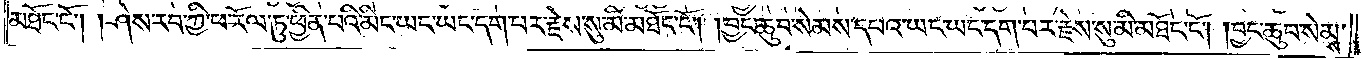མཐོང་ངོ༌། །ཤེས་རབ་ཀྱི་ཕ་རོལ་ཏུ་ཕྱིན་པའི་མིང་ཡང་ཡང་དག་པར་རྗེས་སུ་མི་མཐོང་ངོ༌། །བྱང་ཆུབ་སེམས་དཔའ་ཡང་ཡང་དག་པར་རྗེས་སུ་མི་མཐོང་ངོ༌། །བྱང་ཆུབ་སེམས་
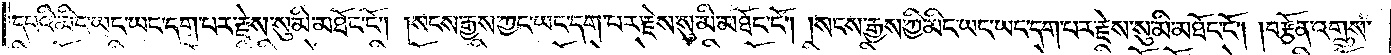དཔའི་མིང་ཡང་ཡང་དག་པར་རྗེས་སུ་མི་མཐོང་ངོ༌། །སངས་རྒྱས་ཀྱང་ཡང་དག་པར་རྗེས་སུ་མི་མཐོང་ངོ༌། །སངས་རྒྱས་ཀྱི་མིང་ཡང་ཡང་དག་པར་རྗེས་སུ་མི་མཐོང་ངོ༌། །བརྩོན་འགྲུས་
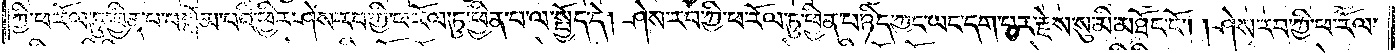ཀྱི་ཕ་རོལ་ཏུ་ཕྱིན་པ་བསྒོམ་པའི་ཕྱིར་ཤེས་རབ་ཀྱི་ཕ་རོལ་ཏུ་ཕྱིན་པ་ལ་སྤྱོད་དེ། ཤེས་རབ་ཀྱི་ཕ་རོལ་ཏུ་ཕྱིན་པ་ཉིད་ཀྱང་ཡང་དག་པར་རྗེས་སུ་མི་མཐོང་ངོ༌། །ཤེས་རབ་ཀྱི་ཕ་རོལ་
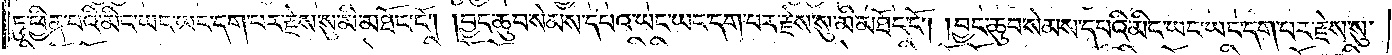ཏུ་ཕྱིན་པའི་མིང་ཡང་ཡང་དག་པར་རྗེས་སུ་མི་མཐོང་ངོ༌། །བྱང་ཆུབ་སེམས་དཔའ་ཡང་ཡང་དག་པར་རྗེས་སུ་མི་མཐོང་ངོ༌། །བྱང་ཆུབ་སེམས་དཔའི་མིང་ཡང་ཡང་དག་པར་རྗེས་སུ་
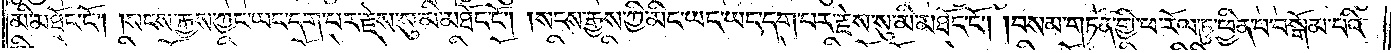མི་མཐོང་ངོ༌། །སངས་རྒྱས་ཀྱང་ཡང་དག་པར་རྗེས་སུ་མི་མཐོང་ངོ༌། །སངས་རྒྱས་ཀྱི་མིང་ཡང་ཡང་དག་པར་རྗེས་སུ་མི་མཐོང་ངོ༌། །བསམ་གཏན་གྱི་ཕ་རོལ་ཏུ་ཕྱིན་པ་བསྒོམ་པའི་
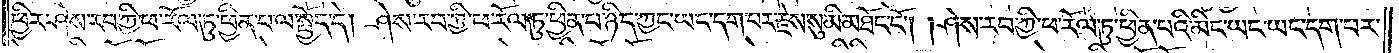ཕྱིར་ཤེས་རབ་ཀྱི་ཕ་རོལ་ཏུ་ཕྱིན་པ་ལ་སྤྱོད་དེ། ཤེས་རབ་ཀྱི་ཕ་རོལ་ཏུ་ཕྱིན་པ་ཉིད་ཀྱང་ཡང་དག་པར་རྗེས་སུ་མི་མཐོང་ངོ༌། །ཤེས་རབ་ཀྱི་ཕ་རོལ་ཏུ་ཕྱིན་པའི་མིང་ཡང་ཡང་དག་པར་
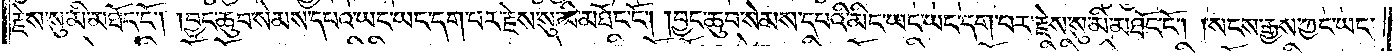རྗེས་སུ་མི་མཐོང་ངོ༌། །བྱང་ཆུབ་སེམས་དཔའ་ཡང་ཡང་དག་པར་རྗེས་སུ་མི་མཐོང་ངོ༌། །བྱང་ཆུབ་སེམས་དཔའི་མིང་ཡང་ཡང་དག་པར་རྗེས་སུ་མི་མཐོང་ངོ༌། །སངས་རྒྱས་ཀྱང་ཡང་
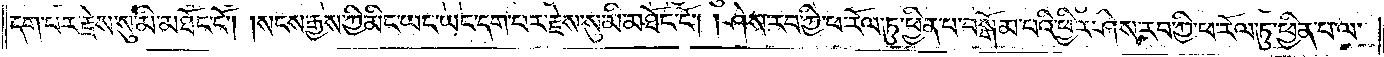དག་པར་རྗེས་སུ་མི་མཐོང་ངོ༌། །སངས་རྒྱས་ཀྱི་མིང་ཡང་ཡང་དག་པར་རྗེས་སུ་མི་མཐོང་ངོ༌། །ཤེས་རབ་ཀྱི་ཕ་རོལ་ཏུ་ཕྱིན་པ་བསྒོམ་པའི་ཕྱིར་ཤེས་རབ་ཀྱི་ཕ་རོལ་ཏུ་ཕྱིན་པ་ལ་
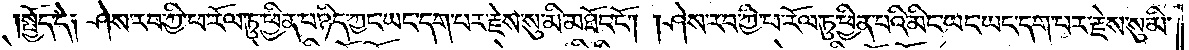སྤྱོད་དེ༑ ཤེས་རབ་ཀྱི་ཕ་རོལ་ཏུ་ཕྱིན་པ་ཉིད་ཀྱང་ཡང་དག་པར་རྗེས་སུ་མི་མཐོང་ངོ༌། །ཤེས་རབ་ཀྱི་ཕ་རོལ་ཏུ་ཕྱིན་པའི་མིང་ཡང་ཡང་དག་པར་རྗེས་སུ་མི་
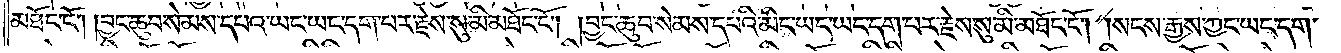མཐོང་ངོ༌། །བྱང་ཆུབ་སེམས་དཔའ་ཡང་ཡང་དག་པར་རྗེས་སུ་མི་མཐོང་ངོ༌། །བྱང་ཆུབ་སེམས་དཔའི་མིང་ཡང་ཡང་དག་པར་རྗེས་སུ་མི་མཐོང་ངོ༌། །སངས་རྒྱས་ཀྱང་ཡང་དག་
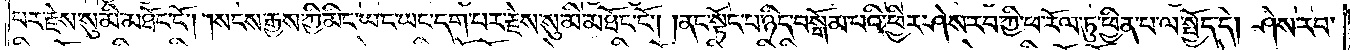པར་རྗེས་སུ་མི་མཐོང་ངོ༌། །སངས་རྒྱས་ཀྱི་མིང་ཡང་ཡང་དག་པར་རྗེས་སུ་མི་མཐོང་ངོ༌། །ནང་སྟོང་པ་ཉིད་བསྒོམ་པའི་ཕྱིར་ཤེས་རབ་ཀྱི་ཕ་རོལ་ཏུ་ཕྱིན་པ་ལ་སྤྱོད་དེ། ཤེས་རབ་
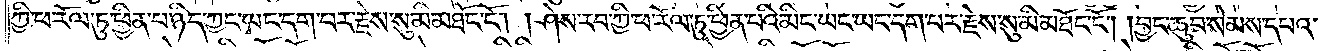ཀྱི་ཕ་རོལ་ཏུ་ཕྱིན་པ་ཉིད་ཀྱང་ཡང་དག་པར་རྗེས་སུ་མི་མཐོང་ངོ༌། །ཤེས་རབ་ཀྱི་ཕ་རོལ་ཏུ་ཕྱིན་པའི་མིང་ཡང་ཡང་དག་པར་རྗེས་སུ་མི་མཐོང་ངོ༌། །བྱང་ཆུབ་སེམས་དཔའ་
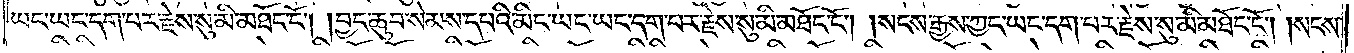ཡང་ཡང་དག་པར་རྗེས་སུ་མི་མཐོང་ངོ༌། །བྱང་ཆུབ་སེམས་དཔའི་མིང་ཡང་ཡང་དག་པར་རྗེས་སུ་མི་མཐོང་ངོ༌། །སངས་རྒྱས་ཀྱང་ཡང་དག་པར་རྗེས་སུ་མི་མཐོང་ངོ༌། །སངས་
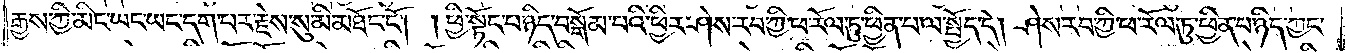རྒྱས་ཀྱི་མིང་ཡང་ཡང་དག་པར་རྗེས་སུ་མི་མཐོང་ངོ༌། །ཕྱི་སྟོང་པ་ཉིད་བསྒོམ་པའི་ཕྱིར་ཤེས་རབ་ཀྱི་ཕ་རོལ་ཏུ་ཕྱིན་པ་ལ་སྤྱོད་དེ། ཤེས་རབ་ཀྱི་ཕ་རོལ་ཏུ་ཕྱིན་པ་ཉིད་ཀྱང་
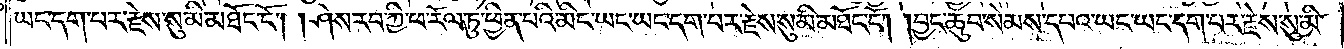ཡང་དག་པར་རྗེས་སུ་མི་མཐོང་ངོ༌། །ཤེས་རབ་ཀྱི་ཕ་རོལ་ཏུ་ཕྱིན་པའི་མིང་ཡང་ཡང་དག་པར་རྗེས་སུ་མི་མཐོང་ངོ༌། །བྱང་ཆུབ་སེམས་དཔའ་ཡང་ཡང་དག་པར་རྗེས་སུ་མི་
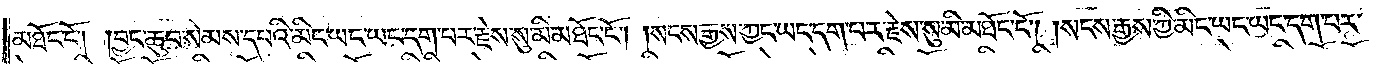མཐོང་ངོ༌། །བྱང་ཆུབ་སེམས་དཔའི་མིང་ཡང་ཡང་དག་པར་རྗེས་སུ་མི་མཐོང་ངོ༌། །སངས་རྒྱས་ཀྱང་ཡང་དག་པར་རྗེས་སུ་མི་མཐོང་ངོ༌། །སངས་རྒྱས་ཀྱི་མིང་ཡང་ཡང་དག་པར་
